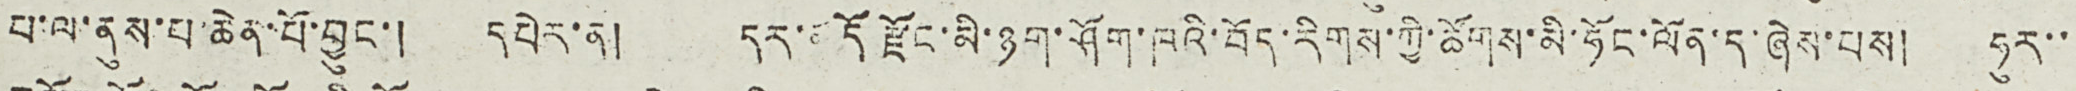པ་ལ་ནུས་པ་ཆེན་པོ་བྱུང་། དཔེར་ན། དར་མདོ རྫོང་མི་ཉག་ཤོག་ཁའི་བོད་རིགས་ཀྱི་ཚོགས་མི་ཧོང་ལོན་ད་ཞེས་པས། ཧུར་་
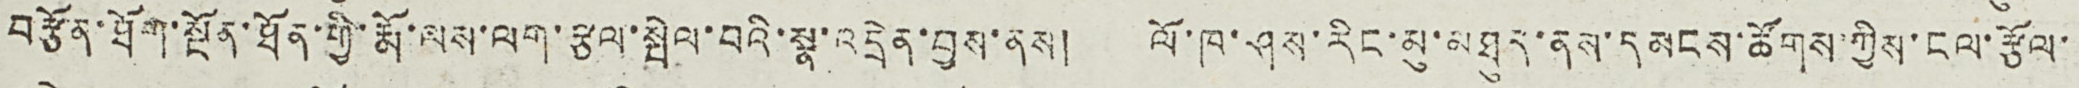བརྩོན་ཐོག་སྔོན་ཐོན་གྱི་རྨོ་ལས་ལག་རྩལ་སྤེལ་བའི་སྣ་འདྲེན་བྱས་ནས། ལོ་ཁ་ཤས་རིང་མུ་མཐུད་ནས་དམངས་ཚོགས་ཀྱིས་ངལ་རྩོལ་
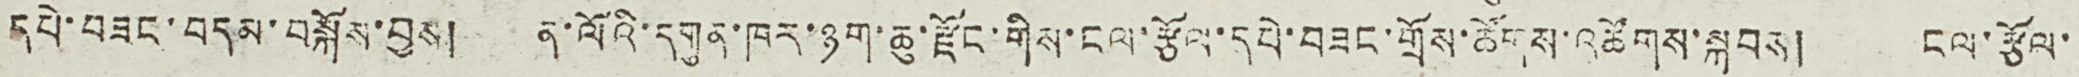དཔེ་བཟང་བདམ་བསྐོས་བྱས། ན་ལོའི་དགུན་ཁར་ཉག་ཆུ་རྫོང་གིས་ངལ་རྩོལ་དཔེ་བཟང་གྲོས་ཚོགས་འཚོགས་སྐབས། ངལ་རྩོལ་
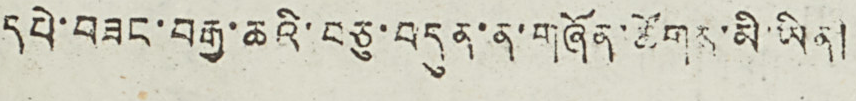དཔེ་བཟང་བརྒྱ་ཆའི་བཅུ་བདུན་ན་གཞོན་ཚོགས་མི་ཡིན།
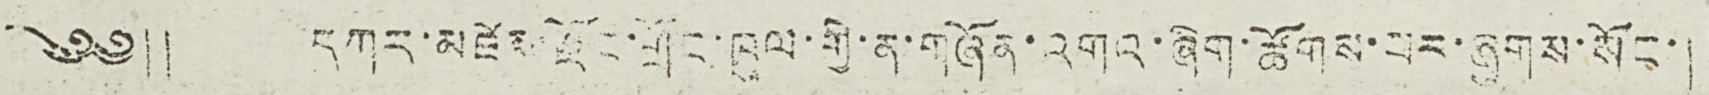༄༅༎ དཀར་མཛེས་རྫོང་གྲོང་ཁུལ་གྱི་ན་གཞོན་འགའ་ཞིག་ཚོགས་པར་ཞུགས་སོང་།
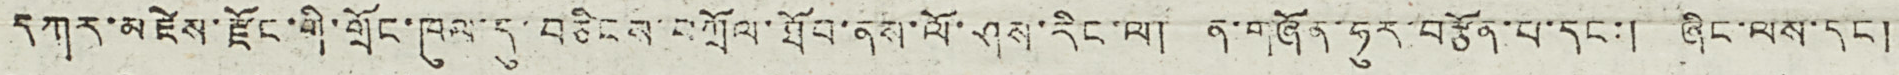དཀར་མཛེས་རྫོང་གི་གྲོང་ཁུལ་དུ་བཅིངས་བཀྲོལ་ཐོབ་ནས་ལོ་ཤས་རིང་ལ། ན་གཞོན་ཧུར་བརྩོན་པ་དང་། ཞིང་ལས་དང་།
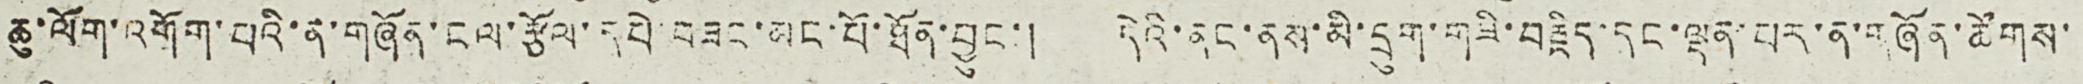ཆུ་ལོག་འགོག་པའི་ན་གཞོན་ངལ་རྩོལ་དཔེ་བཟང་མང་པོ་ཐན་བྱུང་། དེའི་ནང་ནས་མི་དྲུག་གཟི་བརྗིད་དང་ལྡན་པར་ན་གཞོན་ཚོགས་
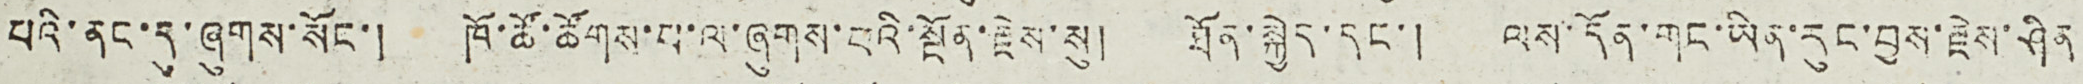པའི་ནང་དུ་ཞུགས་སོང་། ཁོ་ཚོ་ཚོགས་པ་ལ་ཞུགས་པའི་སྔོན་རྗེས་སུ། ཐོན་སྐྱེད་དང་། ལས་དོན་གང་ཡིན་རུང་བྱས་རྗེས་ཤིན
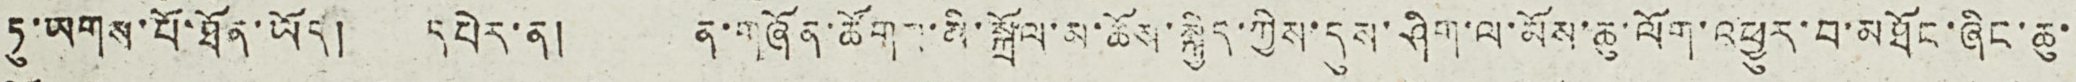ཏུ་ཡགས་པོ་ཐོན་ཡོད། དཔེར་ན། ན་གཞོན་ཚོགས་མི་སྐྲོལ་མ་ཆོས་སྐྱིད་ཀྱིས་དུས་ཤིག་ལ་སོས་ཆུ་ལོག་འཕྱུར་བ་མཐོང་ཞིང་ཆུ་
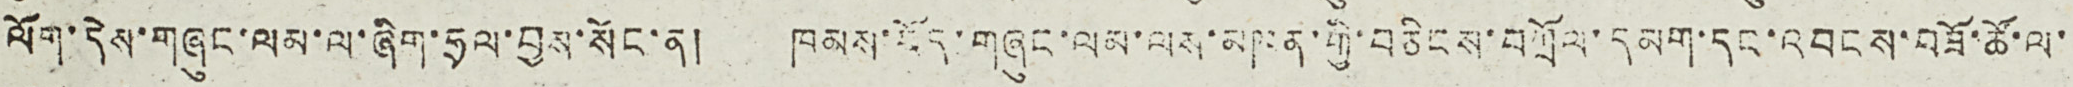ལོག་དེས་གཞུང་ལམ་ལ་ཞིག་ཧྲལ་བྱས་སོང་ན། ཁམས་བོད་གཞུང་ལམ་ལས་མཁན་གྱི་བཅིངས་བཀྲོལ་དམག་དང་འབངས་བཟོ་ཚོ་ལ་
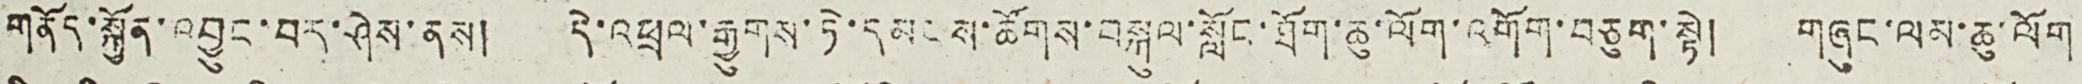གནོད་སྐྱོན་འབྱུང་བར་ཤེས་ནས། དེ་འཕྲལ་རྒྱུགས་ཏེ་དམངས་ཚོགས་བསྐུལ་སློང་ཐོག་ཆུ་ལོག་འགོག་བཅུག་སྟེ། གཞུང་ལམ་ཆུ་ལོག
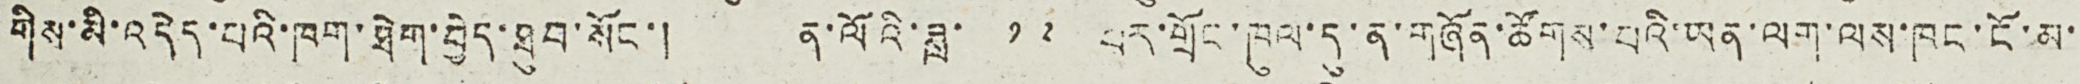གིས་མི་འདེད་པའི་ཁག་ཐེག་བྱེད་ཐུབ་སོང་། ན་ལོའི་ཟླ་ ༡༢ པར་གྲོང་ཁུལ་དུ་ན་གཞོན་ཚོགས་པའི་ཡན་ལག་ལས་ཁང་ངོ་མ་
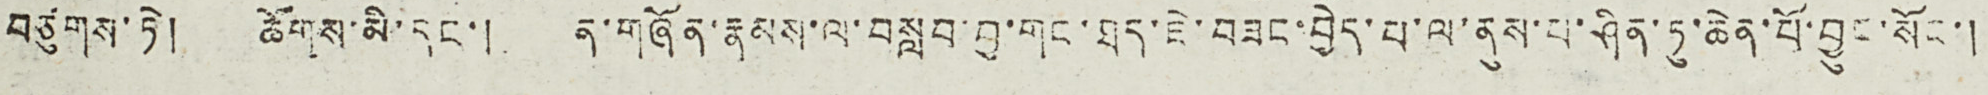བཙུགས་ཏེ། ཚོགས་མི་དང་། ན་གཞོན་རྣམས་ལ་བསླབ་བྱ་གང་ཐད་ཇེ་བཟང་བྱེད་པ་ལ་ནུས་པ་ཤིན་ཏུ་ཆེན་པོ་བྱུང་སོང་།
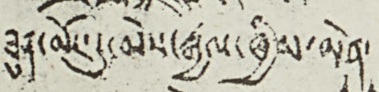ཐུན་མོང་དུ་མེས་རྒྱལ་ཁྱིམ་ཆེན་
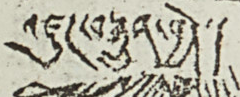འཛུཊ་བསྐྲུན་བྱེད།
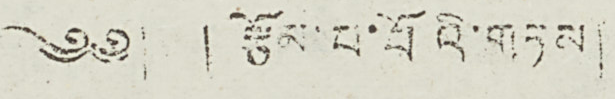༄༅། །རྩོམ་པ་པོའི་གཏམ།
